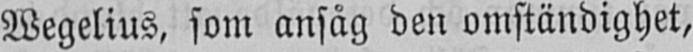Wegelius. som ansåg den omständighet,
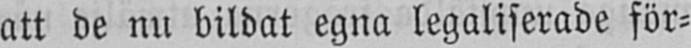att de nu bildat egna legaliserade för-
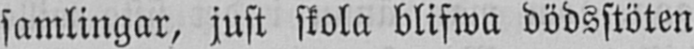samlingar, just skola blifwa dödsstöten
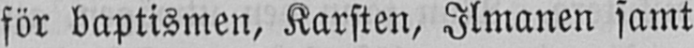för baptismen, Karsten, Ilmanen samt
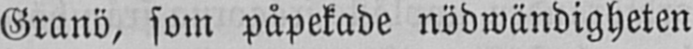Granö, som påpekade nödwändigheten
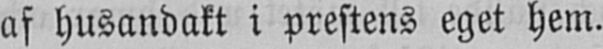af husandakt i prestens eget hem.
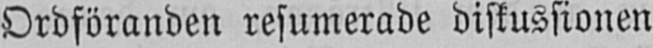Ordföranden resumerade diskussionen
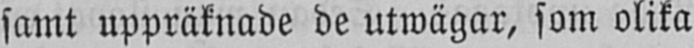samt uppräknade de utwägar, som olika
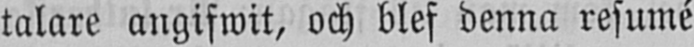talare angifwit, och blef denna resumé
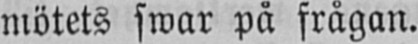mötets swar på frågan.
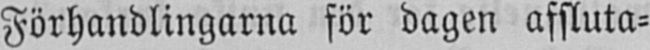Förhandlingarna för dagen afsluta-
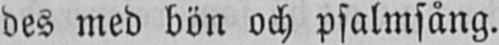des med bön och psalmsång.
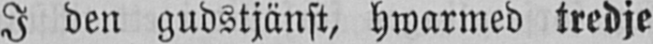I den gudstjänst, hwarmed tredje
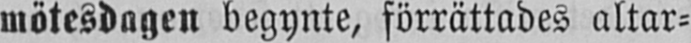mötesdagen begynte, förrättades altar-
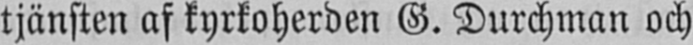tjänsten af kyrkoherden G. Durchman och
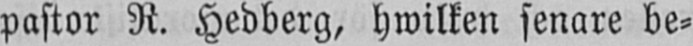pastor R. Hedberg, hwilken senare be-
